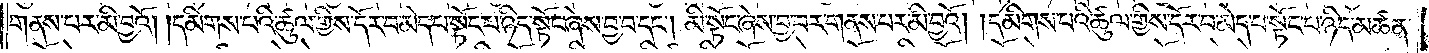གནས་པར་མི་བྱའོ། །དམིགས་པའི་ཚུལ་གྱིས་དོར་བ་མེད་པ་སྟོང་པ་ཉིད་སྟོང་ཞེས་བྱ་བ་དང༌། མི་སྟོང་ཞེས་བྱ་བར་གནས་པར་མི་བྱའོ། །དམིགས་པའི་ཚུལ་གྱིས་དོར་བ་མེད་པ་སྟོང་པ་ཉིད་མཚན་
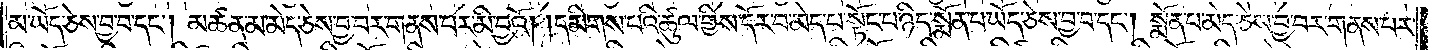མ་ཡོད་ཅེས་བྱ་བ་དང༌། མཚན་མ་མེད་ཅེས་བྱ་བར་གནས་པར་མི་བྱའོ། །དམིགས་པའི་ཚུལ་གྱིས་དོར་བ་མེད་པ་སྟོང་པ་ཉིད་སྨོན་པ་ཡོད་ཅེས་བྱ་བ་དང༌། སྨོན་པ་མེད་ཅེས་བྱ་བར་གནས་པར་
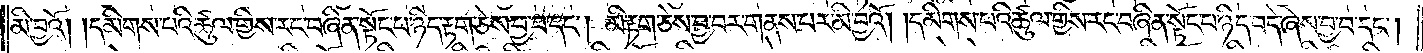མི་བྱའོ། །དམིགས་པའི་ཚུལ་གྱིས་རང་བཞིན་སྟོང་པ་ཉིད་རྟག་ཅེས་བྱ་བ་དང༌། མི་རྟག་ཅེས་བྱ་བར་གནས་པར་མི་བྱའོ། །དམིགས་པའི་ཚུལ་གྱིས་རང་བཞིན་སྟོང་པ་ཉིད་བདེ་ཞེས་བྱ་བ་དང༌།
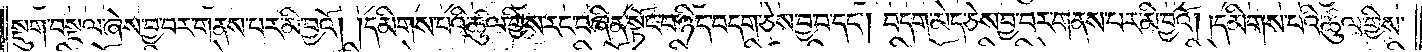སྡུག་བསྔལ་ཞེས་བྱ་བར་གནས་པར་མི་བྱའོ། །དམིགས་པའི་ཚུལ་གྱིས་རང་བཞིན་སྟོང་པ་ཉིད་བདག་ཅེས་བྱ་བ་དང༌། བདག་མེད་ཅེས་བྱ་བར་གནས་པར་མི་བྱའོ། །དམིགས་པའི་ཚུལ་གྱིས་
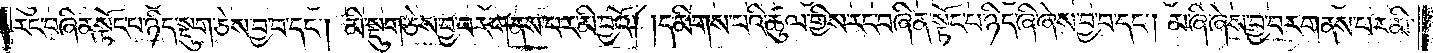རང་བཞིན་སྟོང་པ་ཉིད་སྡུག་ཅེས་བྱ་བ་དང༌། མི་སྡུག་ཅེས་བྱ་བར་གནས་པར་མི་བྱའོ། །དམིགས་པའི་ཚུལ་གྱིས་རང་བཞིན་སྟོང་པ་ཉིད་ཞི་ཞེས་བྱ་བ་དང༌། མ་ཞི་ཞེས་བྱ་བར་གནས་པར་མི་
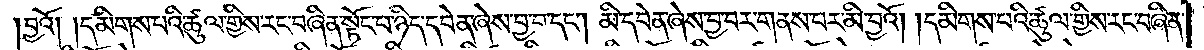བྱའོ། །དམིགས་པའི་ཚུལ་གྱིས་རང་བཞིན་སྟོང་པ་ཉིད་དབེན་ཞེས་བྱ་བ་དང༌། མི་དབེན་ཞེས་བྱ་བར་གནས་པར་མི་བྱའོ། །དམིགས་པའི་ཚུལ་གྱིས་རང་བཞིན་
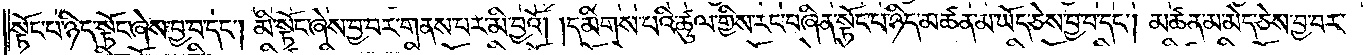སྟོང་པ་ཉིད་སྟོང་ཞེས་བྱ་བ་དང༌། མི་སྟོང་ཞེས་བྱ་བར་གནས་པར་མི་བྱའོ། །དམིགས་པའི་ཚུལ་གྱིས་རང་བཞིན་སྟོང་པ་ཉིད་མཚན་མ་ཡོད་ཅེས་བྱ་བ་དང༌། མཚན་མ་མེད་ཅེས་བྱ་བར་
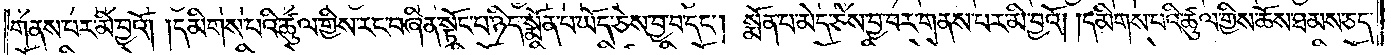གནས་པར་མི་བྱའོ། །དམིགས་པའི་ཚུལ་གྱིས་རང་བཞིན་སྟོང་པ་ཉིད་སྨོན་པ་ཡོད་ཅེས་བྱ་བ་དང༌། སྨོན་པ་མེད་ཅེས་བྱ་བར་གནས་པར་མི་བྱའོ། །དམིགས་པའི་ཚུལ་གྱིས་ཆོས་ཐམས་ཅད་
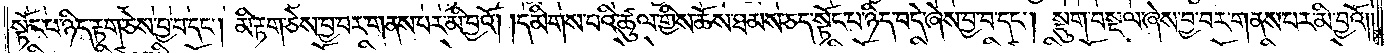སྟོང་པ་ཉིད་རྟག་ཅེས་བྱ་བ་དང༌། མི་རྟག་ཅེས་བྱ་བར་གནས་པར་མི་བྱའོ། །དམིགས་པའི་ཚུལ་གྱིས་ཆོས་ཐམས་ཅད་སྟོང་པ་ཉིད་བདེ་ཞེས་བྱ་བ་དང༌། སྡུག་བསྔལ་ཞེས་བྱ་བར་གནས་པར་མི་བྱའོ། །
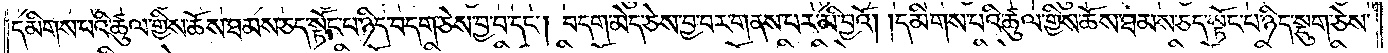དམིགས་པའི་ཚུལ་གྱིས་ཆོས་ཐམས་ཅད་སྟོང་པ་ཉིད་བདག་ཅེས་བྱ་བ་དང༌། བདག་མེད་ཅེས་བྱ་བར་གནས་པར་མི་བྱའོ། །དམིགས་པའི་ཚུལ་གྱིས་ཆོས་ཐམས་ཅད་སྟོང་པ་ཉིད་སྡུག་ཅེས་
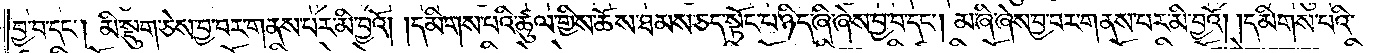བྱ་བ་དང༌། མི་སྡུག་ཅེས་བྱ་བར་གནས་པར་མི་བྱའོ། །དམིགས་པའི་ཚུལ་གྱིས་ཆོས་ཐམས་ཅད་སྟོང་པ་ཉིད་ཞི་ཞེས་བྱ་བ་དང༌། མ་ཞི་ཞེས་བྱ་བར་གནས་པར་མི་བྱའོ། །དམིགས་པའི་
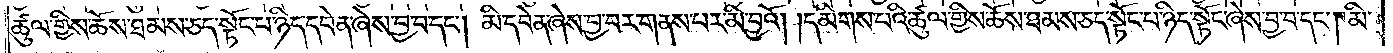ཚུལ་གྱིས་ཆོས་ཐམས་ཅད་སྟོང་པ་ཉིད་དབེན་ཞེས་བྱ་བ་དང༌། མི་དབེན་ཞེས་བྱ་བར་གནས་པར་མི་བྱའོ། །དམིགས་པའི་ཚུལ་གྱིས་ཆོས་ཐམས་ཅད་སྟོང་པ་ཉིད་སྟོང་ཞེས་བྱ་བ་དང༌། མི་
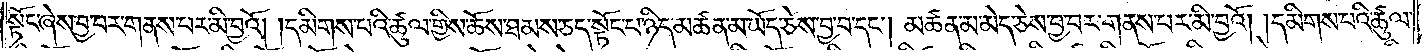སྟོང་ཞེས་བྱ་བར་གནས་པར་མི་བྱའོ། །དམིགས་པའི་ཚུལ་གྱིས་ཆོས་ཐམས་ཅད་སྟོང་པ་ཉིད་མཚན་མ་ཡོད་ཅེས་བྱ་བ་དང༌། མཚན་མ་མེད་ཅེས་བྱ་བར་གནས་པར་མི་བྱའོ། །དམིགས་པའི་ཚུལ་
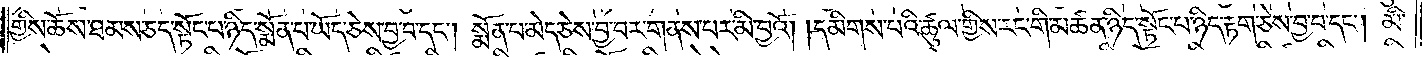གྱིས་ཆོས་ཐམས་ཅད་སྟོང་པ་ཉིད་སྨོན་པ་ཡོད་ཅེས་བྱ་བ་དང༌། སྨོན་པ་མེད་ཅེས་བྱ་བར་གནས་པར་མི་བྱའོ། །དམིགས་པའི་ཚུལ་གྱིས་རང་གི་མཚན་ཉིད་སྟོང་པ་ཉིད་རྟག་ཅེས་བྱ་བ་དང༌། མི་
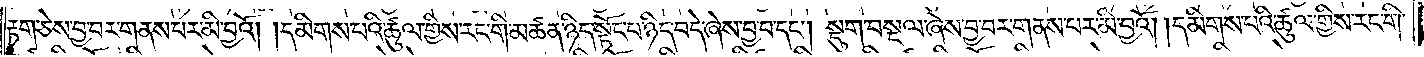རྟག་ཅེས་བྱ་བར་གནས་པར་མི་བྱའོ། །དམིགས་པའི་ཚུལ་གྱིས་རང་གི་མཚན་ཉིད་སྟོང་པ་ཉིད་བདེ་ཞེས་བྱ་བ་དང༌། སྡུག་བསྔལ་ཞེས་བྱ་བར་གནས་པར་མི་བྱའོ། །དམིགས་པའི་ཚུལ་གྱིས་རང་གི་
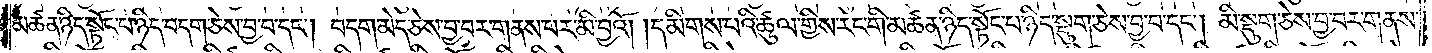མཚན་ཉིད་སྟོང་པ་ཉིད་བདག་ཅེས་བྱ་བ་དང༌། བདག་མེད་ཅེས་བྱ་བར་གནས་པར་མི་བྱའོ། །དམིགས་པའི་ཚུལ་གྱིས་རང་གི་མཚན་ཉིད་སྟོང་པ་ཉིད་སྡུག་ཅེས་བྱ་བ་དང༌། མི་སྡུག་ཅེས་བྱ་བར་གནས་
